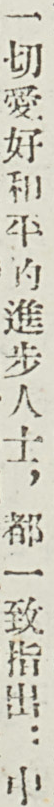一切愛好和平的進步人士，都一致指出：中
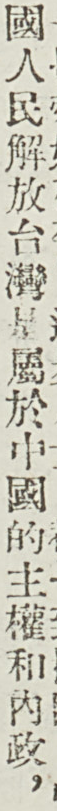國人民解放台灣是屬於中國的主權和內政，
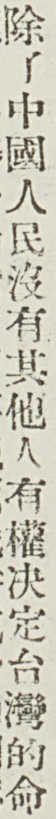除了中國人民沒有其他人有權決定台灣的命
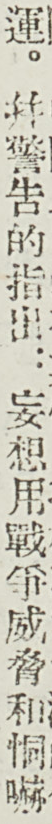運。並警告的指出：妄想用戰爭威脅和恫嚇
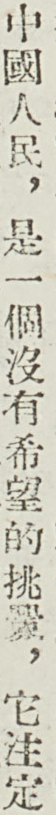中國人民，是一個沒有希望的挑釁，它註定
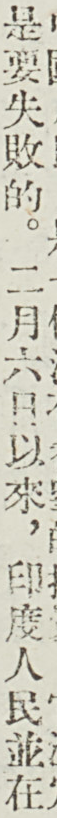是要失敗的。二月六日以來，印度人民並在
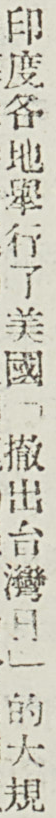印度各地舉行了美國「撤出台灣日」的大規
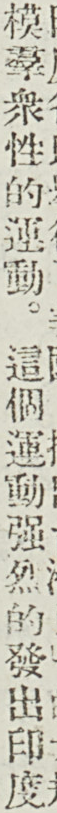模羣衆性的運動。這個運動強烈的發出印度
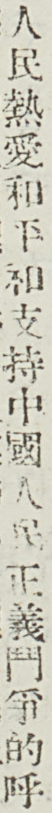人民熱愛和平和支持中國人民正義鬥爭的呼
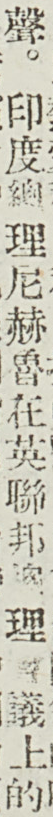聲。印度總理尼赫魯在英聯邦總理會議上的
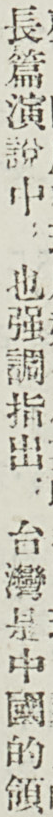長篇演說中：也強調指出：台灣是中國的領
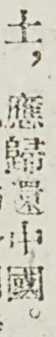土，應歸還中國。
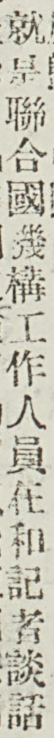就是聯合國機構工作人員在和記者談話
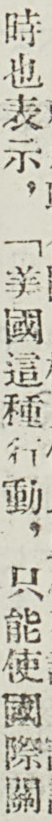時也表示，「美國這種行動，只能使國際關
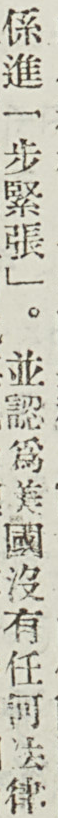係進一步緊張」。並認爲美國沒有任何法律
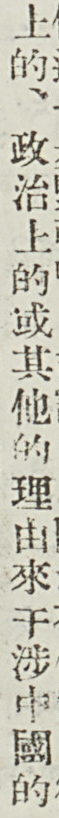上的、政治上的或其他的理由來干涉中國的
